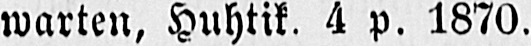warten, Huhtik. 4 p. 1870.
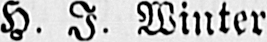H. I. Winter.
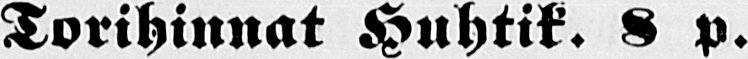Torihinnat Huhtik. 8 p.
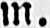m.
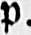p.
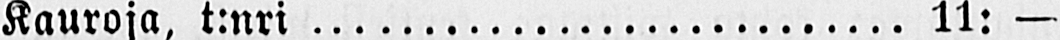Kauroja, t:nri 11: —
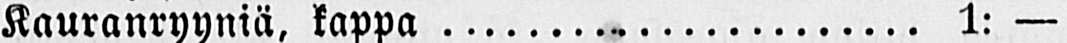Kauranryyniä, kappa 1: —
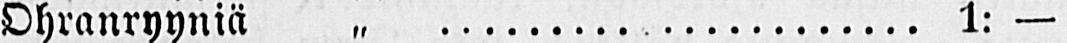Ohranryyniä „ 1: —
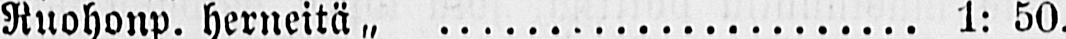Ruohonp. herneitä „ 1: 50.
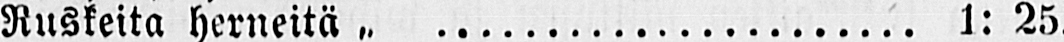Ruskeita herneitä „ 1: 25.
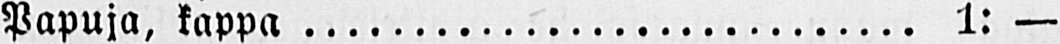Papuja, kappa 1: —
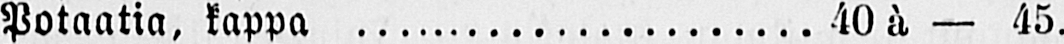Potaatin, kappa 40ä — 45.
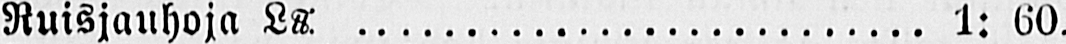Ruisjauhoja LU+2114 1: 60.
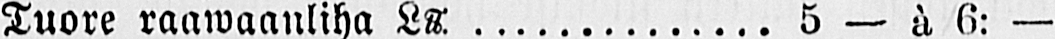Tuore raawaanliha LU+2114 5 — ä, 6: —
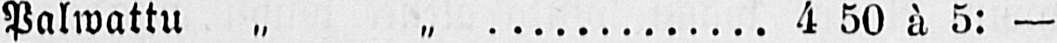Palwattu „ „ 4 50 ä 5: —
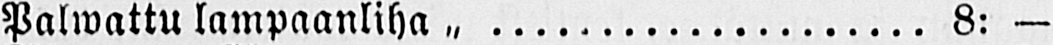Palwattu lampaanliha „ 8: —
